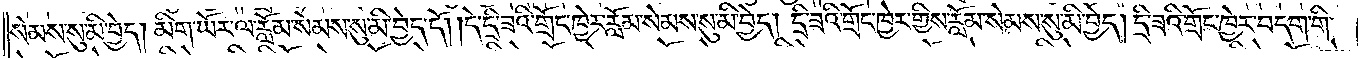སེམས་སུ་མི་བྱེད། མིག་ཡོར་ལ་རློམ་སེམས་སུ་མི་བྱེད་དོ། །དེ་དྲི་ཟའི་གྲོང་ཁྱེར་རློམ་སེམས་སུ་མི་བྱེད། དྲི་ཟའི་གྲོང་ཁྱེར་གྱིས་རློམ་སེམས་སུ་མི་བྱེད། དྲི་ཟའི་གྲོང་ཁྱེར་བདག་གི་
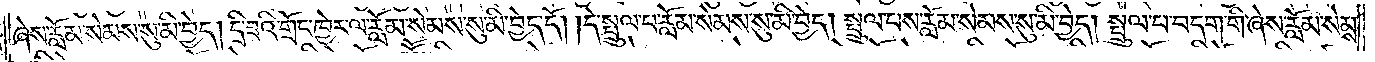ཞེས་རློམ་སེམས་སུ་མི་བྱེད། དྲི་ཟའི་གྲོང་ཁྱེར་ལ་རློམ་སེམས་སུ་མི་བྱེད་དོ། །དེ་སྤྲུལ་པ་རློམ་སེམས་སུ་མི་བྱེད། སྤྲུལ་པས་རློམ་སེམས་སུ་མི་བྱེད། སྤྲུལ་པ་བདག་གི་ཞེས་རློམ་སེམས་
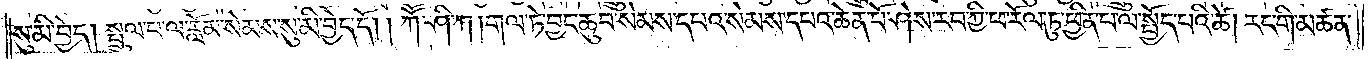སུ་མི་བྱེད། སྤྲུལ་པ་ལ་རློམ་སེམས་སུ་མི་བྱེད་དོ། །ཀཽ་ཤི་ཀ། གལ་ཏེ་བྱང་ཆུབ་སེམས་དཔའ་སེམས་དཔའ་ཆེན་པོ་ཤེས་རབ་ཀྱི་ཕ་རོལ་ཏུ་ཕྱིན་པ་ལ་སྤྱོད་པའི་ཚེ། རང་གི་མཚན་
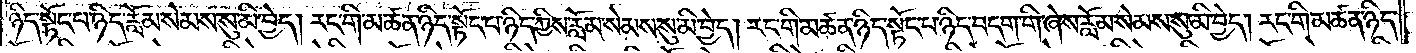ཉིད་སྟོང་པ་ཉིད་རློམ་སེམས་སུ་མི་བྱེད། རང་གི་མཚན་ཉིད་སྟོང་པ་ཉིད་ཀྱིས་རློམ་སེམས་སུ་མི་བྱེད། རང་གི་མཚན་ཉིད་སྟོང་པ་ཉིད་བདག་གི་ཞེས་རློམ་སེམས་སུ་མི་བྱེད། རང་གི་མཚན་ཉིད་
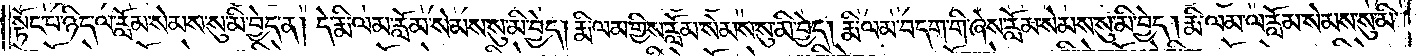སྟོང་པ་ཉིད་ལ་རློམ་སེམས་སུ་མི་བྱེད་ན། དེ་རྨི་ལམ་རློམ་སེམས་སུ་མི་བྱེད། རྨི་ལམ་གྱིས་རློམ་སེམས་སུ་མི་བྱེད། རྨི་ལམ་བདག་གི་ཞེས་རློམ་སེམས་སུ་མི་བྱེད། རྨི་ལམ་ལ་རློམ་སེམས་སུ་མི་
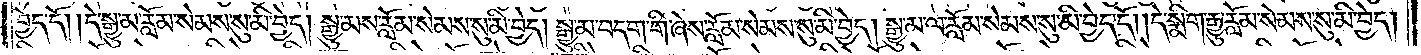བྱེད་དོ། །དེ་སྒྱུ་མ་རློམ་སེམས་སུ་མི་བྱེད། སྒྱུ་མས་རློམ་སེམས་སུ་མི་བྱེད། སྒྱུ་མ་བདག་གི་ཞེས་རློམ་སེམས་སུ་མི་བྱེད། སྒྱུ་མ་ལ་རློམ་སེམས་སུ་མི་བྱེད་དོ། །དེ་སྨིག་རྒྱུ་རློམ་སེམས་སུ་མི་བྱེད།
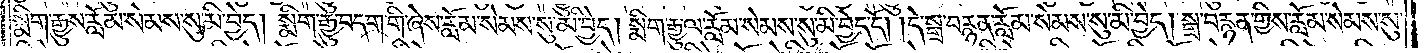སྨིག་རྒྱུས་རློམ་སེམས་སུ་མི་བྱེད། སྨིག་རྒྱུ་བདག་གི་ཞེས་རློམ་སེམས་སུ་མི་བྱེད། སྨིག་རྒྱུ་ལ་རློམ་སེམས་སུ་མི་བྱེད་དོ། །དེ་སྒྲ་བརྙན་རློམ་སེམས་སུ་མི་བྱེད། སྒྲ་བརྙན་གྱིས་རློམ་སེམས་སུ་
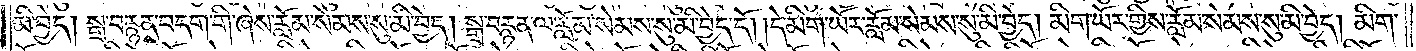མི་བྱེད། སྒྲ་བརྙན་བདག་གི་ཞེས་རློམ་སེམས་སུ་མི་བྱེད། སྒྲ་བརྙན་ལ་རློམ་སེམས་སུ་མི་བྱེད་དོ། །དེ་མིག་ཡོར་རློམ་སེམས་སུ་མི་བྱེད། མིག་ཡོར་གྱིས་རློམ་སེམས་སུ་མི་བྱེད། མིག་
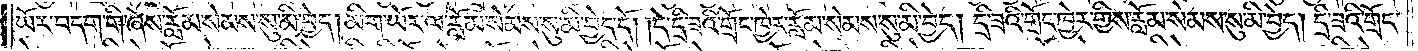ཡོར་བདག་གི་ཞེས་རློམ་སེམས་སུ་མི་བྱེད། མིག་ཡོར་ལ་རློམ་སེམས་སུ་མི་བྱེད་དོ། །དེ་དྲི་ཟའི་གྲོང་ཁྱེར་རློམ་སེམས་སུ་མི་བྱེད། དྲི་ཟའི་གྲོང་ཁྱེར་གྱིས་རློམ་སེམས་སུ་མི་བྱེད། དྲི་ཟའི་གྲོང་
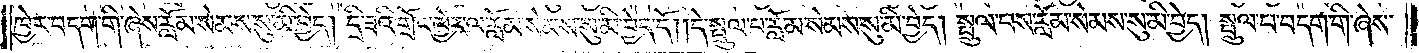ཁྱེར་བདག་གི་ཞེས་རློམ་སེམས་སུ་མི་བྱེད། དྲི་ཟའི་གྲོང་ཁྱེར་ལ་རློམ་སེམས་སུ་མི་བྱེད་དོ། །དེ་སྤྲུལ་པ་རློམ་སེམས་སུ་མི་བྱེད། སྤྲུལ་པས་རློམ་སེམས་སུ་མི་བྱེད། སྤྲུལ་པ་བདག་གི་ཞེས་
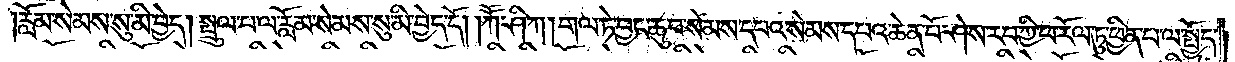རློམ་སེམས་སུ་མི་བྱེད། སྤྲུལ་པ་ལ་རློམ་སེམས་སུ་མི་བྱེད་དོ། །ཀཽ་ཤི་ཀ། གལ་ཏེ་བྱང་ཆུབ་སེམས་དཔའ་སེམས་དཔའ་ཆེན་པོ་ཤེས་རབ་ཀྱི་ཕ་རོལ་ཏུ་ཕྱིན་པ་ལ་སྤྱོད་
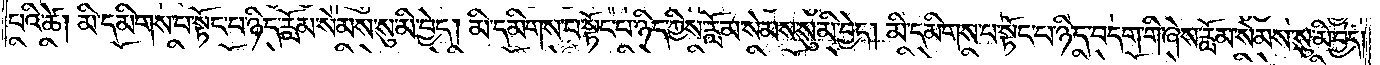པའི་ཚེ། མི་དམིགས་པ་སྟོང་པ་ཉིད་རློམ་སེམས་སུ་མི་བྱེད། མི་དམིགས་པ་སྟོང་པ་ཉིད་ཀྱིས་རློམ་སེམས་སུ་མི་བྱེད། མི་དམིགས་པ་སྟོང་པ་ཉིད་བདག་གི་ཞེས་རློམ་སེམས་སུ་མི་བྱེད།
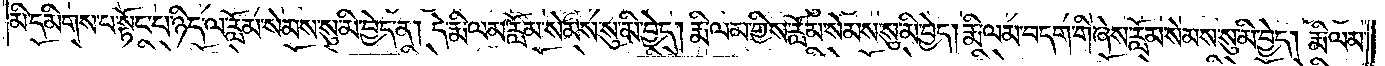མི་དམིགས་པ་སྟོང་པ་ཉིད་ལ་རློམ་སེམས་སུ་མི་བྱེད་ན། དེ་རྨི་ལམ་རློམ་སེམས་སུ་མི་བྱེད། རྨི་ལམ་གྱིས་རློམ་སེམས་སུ་མི་བྱེད། རྨི་ལམ་བདག་གི་ཞེས་རློམ་སེམས་སུ་མི་བྱེད། རྨི་ལམ་
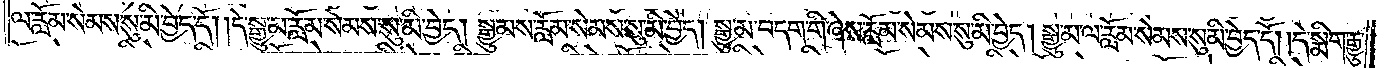ལ་རློམ་སེམས་སུ་མི་བྱེད་དོ། །དེ་སྒྱུ་མ་རློམ་སེམས་སུ་མི་བྱེད།སྒྱུ་མས་རློམ་སེམས་སུ་མི་བྱེད། སྒྱུ་མ་བདག་གི་ཞེས་རློམ་སེམས་སུ་མི་བྱེད། སྒྱུ་མ་ལ་རློམ་སེམས་སུ་མི་བྱེད་དོ། །དེ་སྨིག་རྒྱུ་
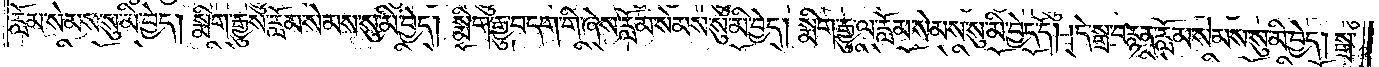རློམ་སེམས་སུ་མི་བྱེད། སྨིག་རྒྱུས་རློམ་སེམས་སུ་མི་བྱེད། སྨིག་རྒྱུ་བདག་གི་ཞེས་རློམ་སེམས་སུ་མི་བྱེད། སྨིག་རྒྱུ་ལ་རློམ་སེམས་སུ་མི་བྱེད་དོ། །དེ་སྒྲ་བརྙན་རློམ་སེམས་སུ་མི་བྱེད། སྒྲ་
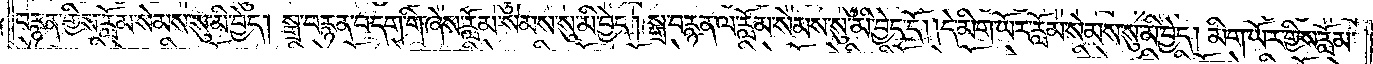བརྙན་གྱིས་རློམ་སེམས་སུ་མི་བྱེད། སྒྲ་བརྙན་བདག་གི་ཞེས་རློམ་སེམས་སུ་མི་བྱེད། སྒྲ་བརྙན་ལ་རློམ་སེམས་སུ་མི་བྱེད་དོ། །དེ་མིག་ཡོར་རློམ་སེམས་སུ་མི་བྱེད། མིག་ཡོར་གྱིས་རློམ་
